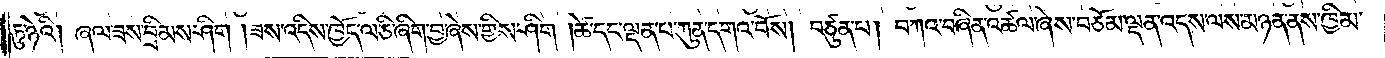ཏུ་ཉེའི། ཞལ་ཟས་བྲིམས་ཤིག །ཟས་འདིས་ཁྱོད་ལ་ཅི་ཞིག་བྱ་ཞེས་གྱིས་ཤིག །ཚེ་དང་ལྡན་པ་ཀུན་དགའ་བོས། བཙུན་པ། བཀའ་བཞིན་འཚལ་ཞེས་བཅོམ་ལྡན་འདས་ལས་མཉན་ནས་ཁྱིམ་
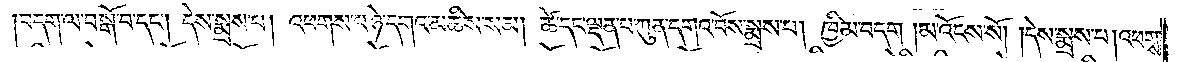།བདག་ལ་བསྒོ་བ་དང༌། དེས་སྨྲས་པ། འཕགས་པ་ཉེ་དགའ་མཆིས་སམ། ཚེ་དང་ལྡན་པ་ཀུན་དགའ་བོས་སྨྲས་པ། ཁྱིམ་བདག །མ་འོངས་སོ། །དེས་སྨྲས་པ། འཕགས་
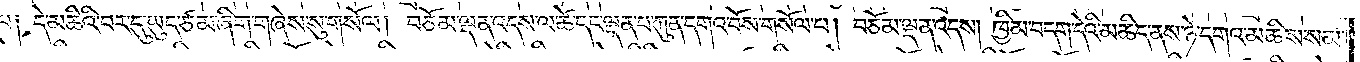པ༑ དེ་མཆིའི་བར་དུ་ཡུད་ཙམ་ཞིག་གཞེས་སུ་གསོལ། བཅོམ་ལྡན་འདས་ལ་ཚེ་དང་ལྡན་པ་ཀུན་དགའ་བོས་གསོལ་པ། བཅོམ་ལྡན་འདས། ཁྱིམ་བདག་དེའི་མཆིད་ནས་ཉེ་དགའ་མཆིས་སམ་
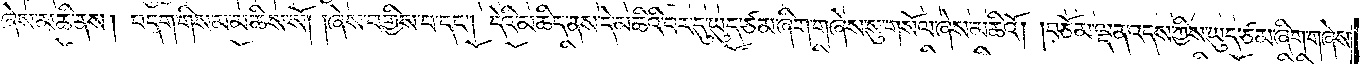ཞེས་མཆི་ནས། བདག་གིས་མ་མཆིས་སོ། །ཞེས་བགྱིས་པ་དང༌། དེའི་མཆིད་ནས་དེ་མཆིའི་བར་དུ་ཡུད་ཙམ་ཞིག་གཞེས་སུ་གསོལ་ཞེས་མཆིའོ། །བཅོམ་ལྡན་འདས་ཀྱིས་ཡུད་ཙམ་ཞིགགཞེས་
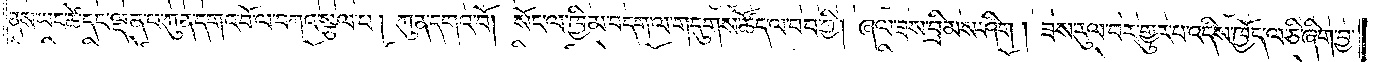ནས་ཡང་ཚེ་དང་ལྡན་པ་ཀུན་དགའ་བོ་ལ་བཀའ་སྩལ་པ། ཀུན་དགའ་བོ། སོང་ལ་ཁྱིམ་བདག་ལ་གདུགས་ཚོད་ལ་བབ་ཀྱི། ཞལ་ཟས་བྲིམས་ཤིག །ཟས་རུལ་བར་གྱུར་པ་འདིས་ཁྱོད་ལ་ཅི་ཞིག་བྱ་
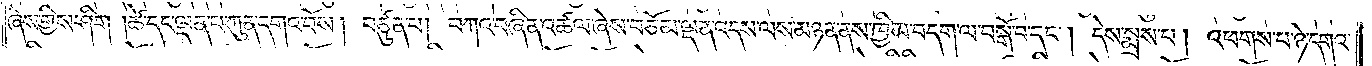ཞེས་གྱིས་ཤིག །ཚེ་དང་ལྡན་པ་ཀུན་དགའ་བོས། བཙུན་པ། བཀའ་བཞིན་འཚལ་ཞེས་བཅོམ་ལྡན་འདས་ལས་མཉན་ནས་ཁྱིམ་བདག་ལ་བསྒོ་བ་དང༌། དེས་སྨྲས་པ། འཕགས་པ་ཉེ་དགའ་
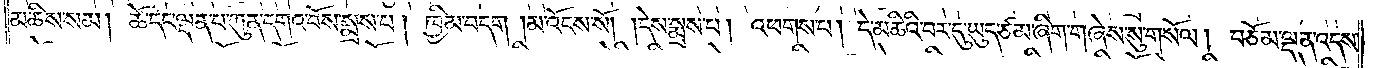མཆིས་སམ། ཚེ་དང་ལྡན་པ་ཀུན་དགའ་བོས་སྨྲས་པ། ཁྱིམ་བདག །མ་འོངས་སོ། །དེས་སྨྲས་པ། འཕགས་པ། དེ་མཆིའི་བར་དུ་ཡུད་ཙམ་ཞིག་གཞེས་སུ་གསོལ། བཅོམ་ལྡན་འདས་
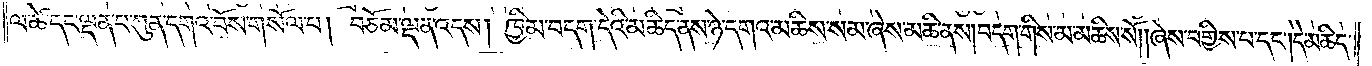ལ་ཚེ་དང་ལྡན་པ་ཀུན་དགའ་བོས་གསོལ་བ། བཅོམ་ལྡན་འདས། ཁྱིམ་བདག་དེའི་མཆིད་ནས་ཉེ་དགའ་མཆིས་སམ་ཞེས་མཆི་ནས། བདག་གིས་མ་མཆིས་སོ། །ཞེས་བགྱིས་པ་དང༌། དེ་མཆིད་
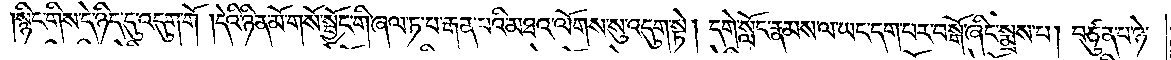།སྙིང་གིས་དེ་ཉིད་དུ་འདུག་གོ །དེའི་ཉིན་མོ་གསོ་སྦྱོང་གི་ཞལ་ཏ་པ་རྒན་པའི་མཐའ་ལོགས་སུ་འདུག་སྟེ། དགེ་སློང་རྣམས་ལ་ཡང་དག་པར་བསྒོ་ཞིང་སྨྲས་པ། བཙུན་པ་ཉེ་
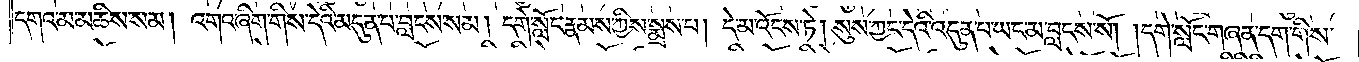དགའ་མ་མཆིས་སམ། འགའ་ཞིག་གིས་དེའི་མདུན་པ་བླངས་སམ། དགེ་སློང་རྣམས་ཀྱིས་སྨྲས་པ། དེ་མ་འོངས་ཏེ། སུས་ཀྱང་དེའི་འདུན་པ་ཡང་མ་བླངས་སོ། །དགེ་སློང་གཞན་དག་གིས་
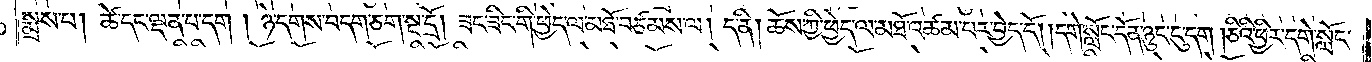སྨྲས་པ། ཚེ་དང་ལྡན་པ་དག །ཉེ་དགས་བདག་ཅག་སྔ་དྲོ། ཟང་ཟིང་གི་ཕྱེད་ལ་མཐོ་བཙམས་ལ། ད་ནི། ཆོས་ཀྱི་ཕྱེད་ལ་མཐོ་འཚམ་པར་བྱེད་དོ། །དགེ་སློང་དོན་ཉུང་ངུ་དག །ཅིའི་ཕྱིར་དགེ་སློང་
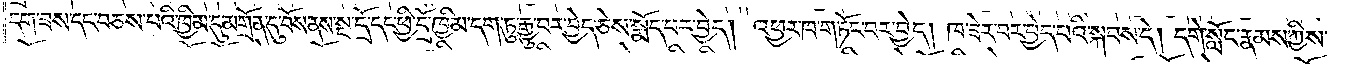དག་ཟས་དང་བཅས་པའི་ཁྱིམ་དུ་མགྲོན་དུ་བོས་ནས་སྔ་དྲོ་དང་ཕྱི་དྲོ་ཁྱིམ་དག་ཏུ་རྒྱུ་བར་བྱེད་ཅེས་སྨོད་པར་བྱེད། འཕྱར་ཁ་གཏོང་བར་བྱེད། ཁ་ཟེར་བར་བྱེད་པའི་སྐབས་དེ། དགེ་སློང་རྣམས་ཀྱིས་
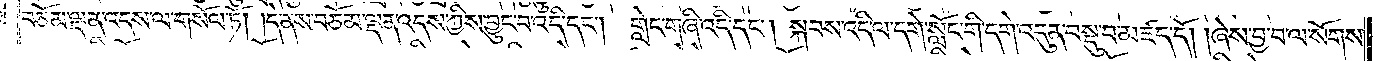བཅོམ་ལྡན་འདས་ལ་གསོལ་ཏོ། །དེ་ནས་བཅོམ་ལྡན་འདས་ཀྱིས་བྱུང་བ་འདི་དང༌། གླེང་གཞི་འདི་དང༌། སྐབས་འདི་ལ་དགེ་སློང་གི་དགེ་འདུན་བསྡུ་བ་མཛད་དོ། །ཞེས་བྱ་བ་ལ་སོགས་
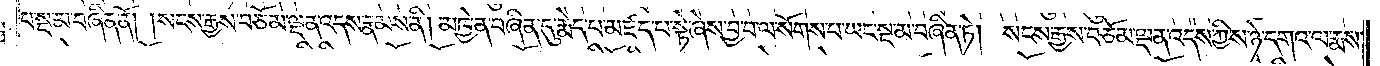པ་སྔ་མ་བཞིན་ནོ། །སངས་རྒྱས་བཅོམ་ལྡན་འདས་རྣམས་ནི། མཁྱེན་བཞིན་དུ་རྨེད་པ་མཛད་པ་སྟེ་ཞེས་བྱ་བ་ལ་སོགས་པ་ཡང་སྔ་མ་བཞིན་ཏེ། སངས་རྒྱས་བཅོམ་ལྡན་འདས་ཀྱིས་ཉེ་དགའ་ལ་རྨས་
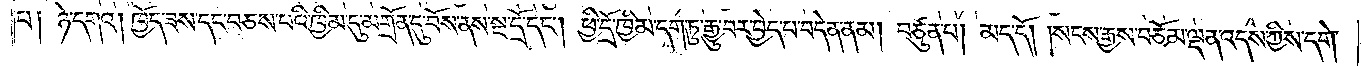པ། ཉེ་དགའ། ཁྱོད་ཟས་དང་བཅས་པའི་ཁྱིམ་དུ་མགྲོན་དུ་བོས་ནས་སྔ་དྲོ་དང༌། ཕྱི་དྲོ་ཁྱིམ་བདག་ཏུ་རྒྱུ་བར་བྱེད་པ་བདེན་ནམ། བཙུན་པ། མད་དོ། །སངས་རྒྱས་བཅོམ་ལྡན་འདས་ཀྱིས་དགེ་
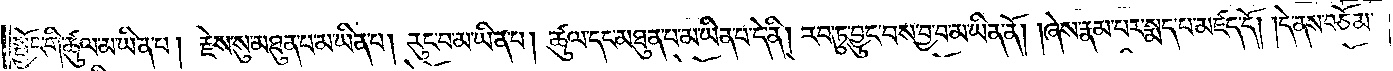སྦྱོང་གི་ཚུལ་མ་ཡིན་པ། རྗེས་སུ་མཐུན་པ་མ་ཡིན་པ། རུང་བ་མ་ཡིན་པ། ཚུལ་དང་མཐུན་པ་མ་ཡིན་པ་དེ་ནི། རབ་ཏུ་བྱུང་བས་བྱ་བ་མ་ཡིན་ནོ། །ཞེས་རྣམ་པར་སྨད་པ་མཛད་དོ། །དེ་ནས་བཅོམ་
